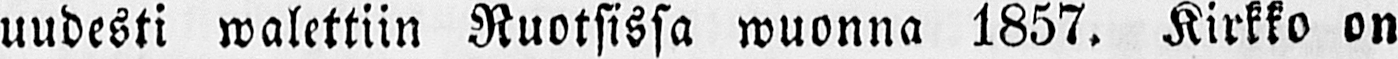uudesti walettiin Ruotsissa wuonna 1857. Kirkko on
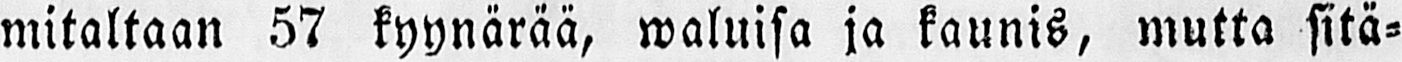mitaltaan 57 kyynärää, waluisa ja kaunis, mutta sitä-
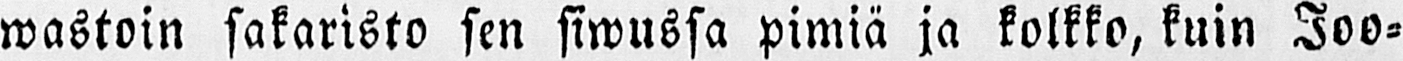wastoin sakaristo sen siwussa pimiä ja kolkko, kuin Joo-
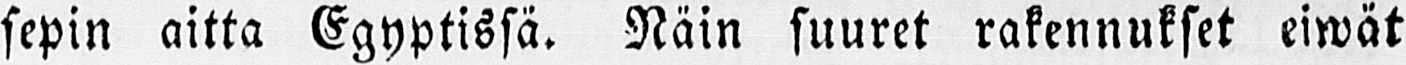sepin aitta Egyptissä. Näin suuret rakennukset eiwät
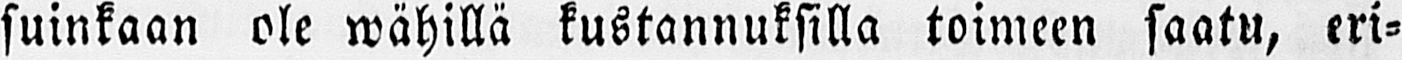suinkaan ole wähillä kustannuksilla toimeen saatu, eri-
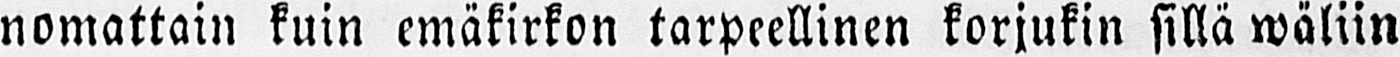nomattain kuin emäkirkon tarpeellinen korjukin sillä wäliin
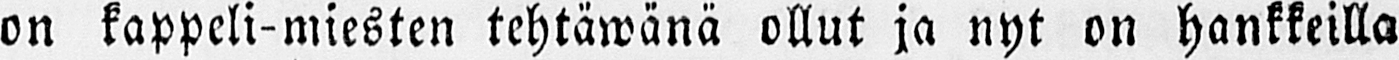on kappeli-miesten tehtäwänä ollut ja nyt on hankkeilla
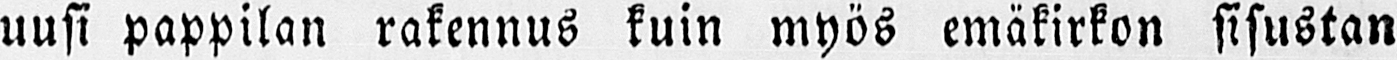uusi pappilan rakennus kuin myös emäkirkon sisustan
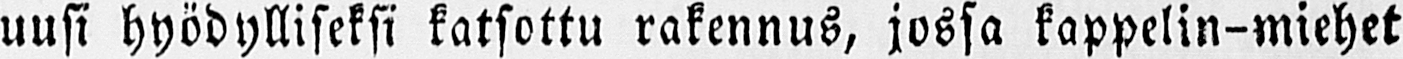uusi hyödylliseksi katsottu rakennus, jossa kappelin-miehet
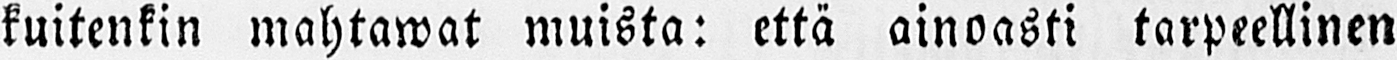kuitenkin mahtawat muista: että ainoasti tarpeellinen
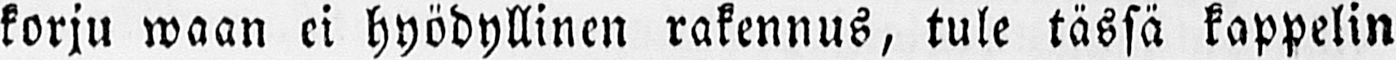korju waan ei hyödyllinen rakennus, tule tässä kappelin
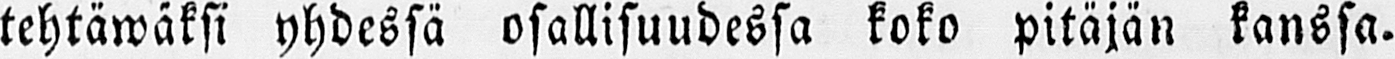tehtäwäksi yhdessä osallisuudessa koko pitäjän kanssa.
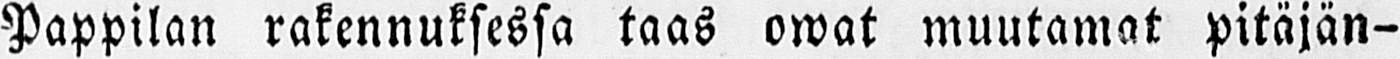Pappilan rakennuksessa taas owat muutamat pitäjän-
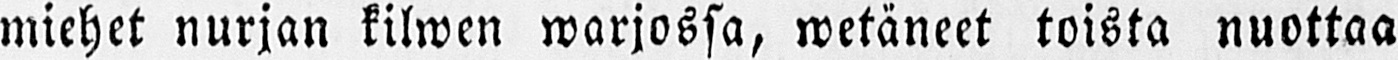miehet nurjan kilwen warjossa, wetäneet toista nuottaa
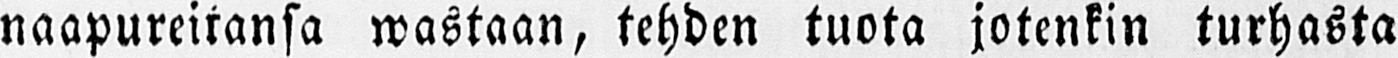naapureitansa wastaan, tehden tuota jotenkin turhasta
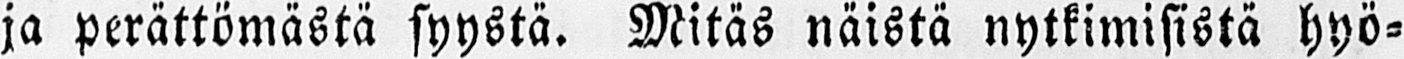ja perättömästä syystä. Mitäs näistä nytkimisistä hyö-
